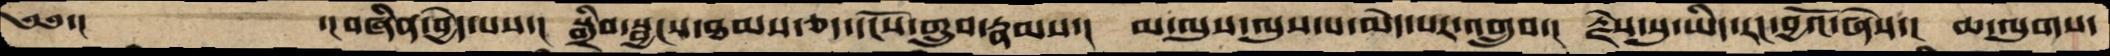༄༅་།      ་།བཞིན་བྱེད་པས་།  སྒྲིབ་སྦྱངས་ཐམས་ཅད་དངོས་གྲུབ་རྣམས་།  མ་ལུས་ལུས་པ་མེད་པར་འགྲུབ་།  རྗེས་སུ་ཡིད་རང་བྱའོ་ཞེས་།  ཆ་ལུགས་
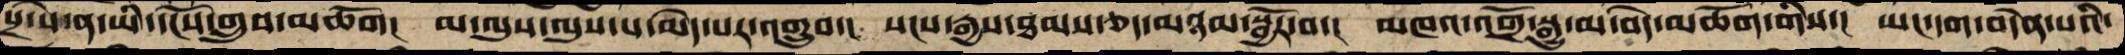པྲ་སེ་ན་ཡི་དངོས་གྲུབ་མཆོག།  མ་ལུས་ལུས་པ་མེད་པར་འགྲུབ་།  སངས་རྒྱས་ཐམས་ཅད་མཉམ་སྦྱོར་བ་།  མཁའ་གྲོ་སྒྱུ་མ་བདེ་མཆོག་གིས་།  ཡང་དག་བདེན་པའི་
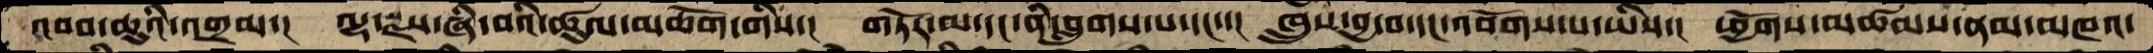འབབ་ཆུའི་འགྲམ་།  ལྷ་སྫས་ཞི་བའི་ཚུལ་མཆོག་གིས་།  གཏོར་མ་དང་ནི་བླུགས་པ་དང་་།  ཁྲུས་བྱ་བ་དང་འབོགས་པ་ཡིས་།  ཕྱོགས་མཚམས་ནམ་མཁའ་
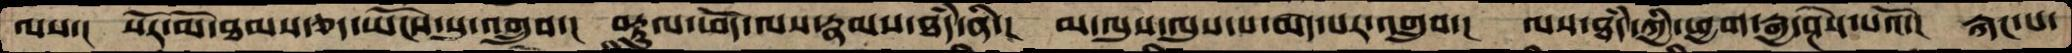ལས་།  སོར་མོ་ཐམས་ཅད་ཡོངས་སུ་འགྲུབ་།  བརྟུལ་ཕོད་ལས་རྣམས་ཐདཾ་ནི་།   མ་ལུས་ལུས་པ་མེད་པར་འགྲུབ་།  ལས་ཐདཾ་ཀྱི་ཕྱག་རྒྱ་ཤེས་པའོ་།  རྐང་པ་
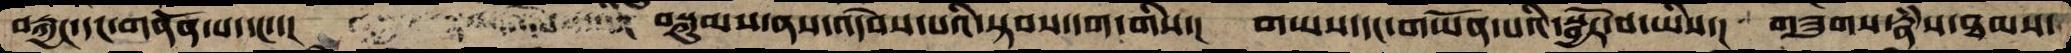བརྐྱང་དང་གནོན་པ་དང་་།  བསྐུམས་ནས་འདེབས་པའི་སྟབས་དག་གིས་།  གཡས་དང་གཡོན་པའི་སྦྱོར་བ་ཡིས་།  གཟུགས་རྣཾས་ཐམས་
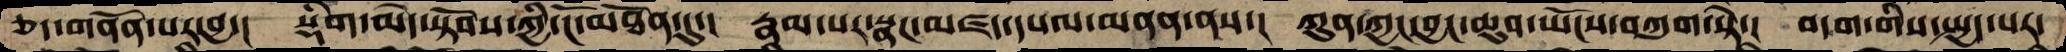ཅད་གནོན་པར་བྱ་།  སྡིག་མེད་སྟོབས་ཀྱི་ངོ་མཐོན་དུ་།  རྣམ་པར་སྣང་མཛད་དཔལ་མནན་ནས་།  ཀུན་ཀྱང་བྱང་ཆུབ་ཡོངས་བཀུག་སྟེ་།  བདག་གིས་སྤྱད་པར་
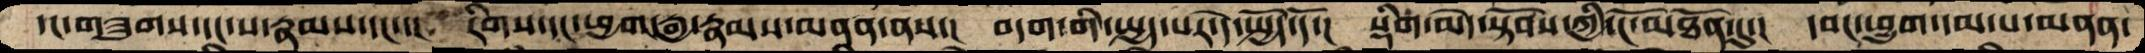དང་གཟུགས་དང་ས་རྣམས་དང་་།  རིགས་དང་ཕྱག་རྒྱ་རྣམས་མནན་ནས་།  བདག་གི་སྤྱད་པར་དེ་སྤྱོད་དོ་།  སྡིག་མེད་སྟོབས་ཀྱི་ངོ་མཐོན་དུ་།  དབང་ཕྱུག་དམ་པ་མནན་
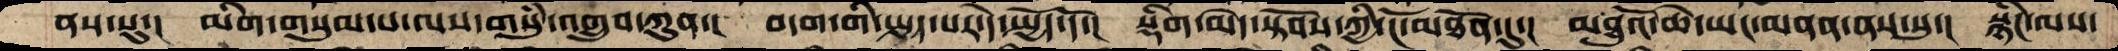ནས་སུ་།  མིག་གསུམ་པ་ལས་གསུཾ་འགྲུབ་ཀུན་།  བདག་གི་སྤྱད་པར་དེ་སྤྱོད་དོ་།  སྡིག་མེད་སྟོབས་ཀྱི་ངོ་མཐོན་དུ་།  མཐུའོ་ཆེ་ཡང་མནན་ནས་སུ་།  སྙིང་ལས་
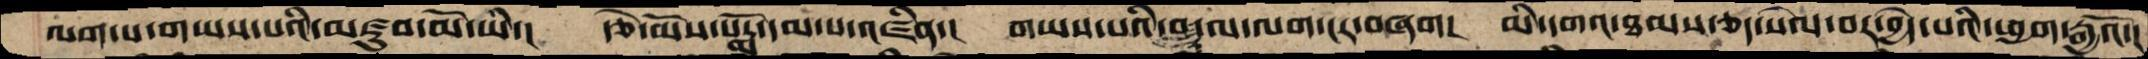ལག་པ་གཡས་པའི་མཛུབ་མོ་ཡི་།  རྩེ་མོས་པདྨོ་དམ་པ་འཛིན་།  གཡས་པའི་བླ་མ་ལག་ངར་བཞག།  མི་དགའ་ཐམས་ཅད་སེལ་བར་བྱེད་པའི་ཕྱག་རྒྱའོ་།
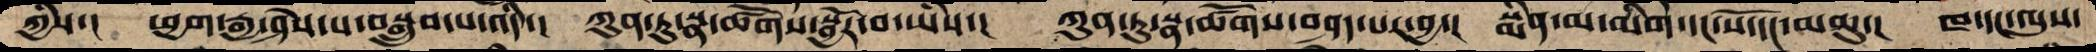ཀྱིས་།  ཕྱག་རྒྱ་ཤེས་པ་བསྒྲུབ་པ་འདི་།  ཀུན་ཏུ་སྣ་ཚོགས་སྦྱོར་བ་ཡིས་།  ཀུན་ཏུ་སྣ་ཚོགས་བཤད་པར་བྱ་།  སྨིན་མ་མིག་དང་སོ་དང་མཆུ་།  ཁ་དང་ལུས་
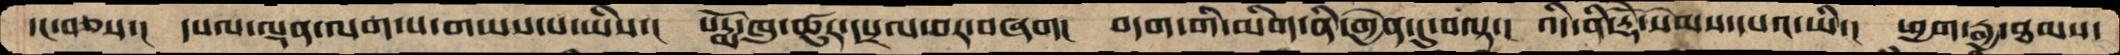དང་བཅས་།  དཔལ་ལྡན་ལག་པ་གཡས་པ་ཡིས་།  པདྨོ་ཁུ་ཚུར་དཔྲལ་བར་བཞག།  བདག་གི་མིག་ནི་གྱེན་དུ་བལྟ་།  འདི་ནི་རྡོེ་སེམས་དཔའ་ཡི་།  ཕྱག་རྒྱ་ཐམས་
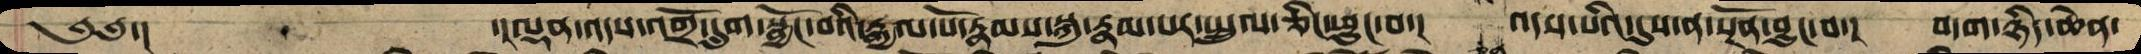༄༅་།    ་།ལྡན་འདས་འགྲོ་དྲུག་སྦྱོང་བའི་རྒྱལ་པོ་རྣམས་སྐུ་རྣམ་པར་སྤྲུལ་ཅིང་ཕྱུང་བ་།  འདས་པའི་དུས་ན་སྔོན་བྱུང་བ་།  བདག་ཉིད་ཆེན་
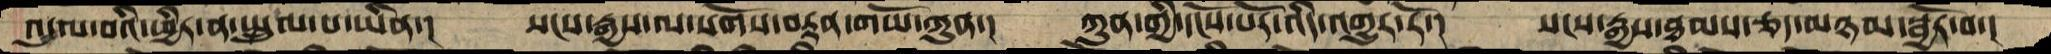འདུལ་བའི་ཕྱིར་ན་སྤྲུལ་པ་ཡིན་།  སངས་རྒྱས་ལ་སོགས་བརྟན་གཡོ་ཀུན་།  ཀུན་གྱི་དངོས་པོར་འདི་འགྱུར་རོ་།  སངས་རྒྱས་ཐམས་ཅད་མཉམ་སྦྱོར་བ་།
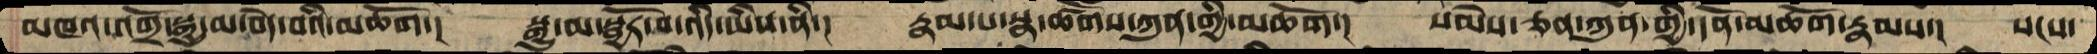མཁའ་གྲོ་སྒྱུ་མ་བདེ་བའི་མཆོག་།  སྒྱུ་མ་སྦྱོར་བ་འདི་ཡིས་ནི་།  རྣམ་པ་སྣ་ཚོགས་ཀུན་གྱི་མཆོག་།  སེམས་ཅན་ཀུན་གྱི་དོན་མཆོག་རྣམས་།  སངས་
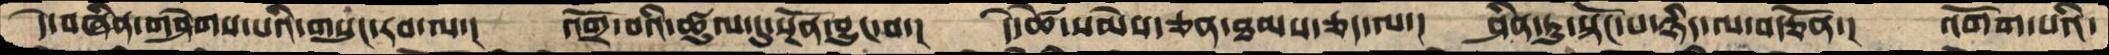དེ་བཞིན་གཤེགས་པའི་གསུང་རབ་ལ་།  འགྲོ་བའི་ཚུལ་དུ་སྔོན་བྱུང་བ་།  དེ་ཚེ་སེམས་ཅན་ཐམས་ཅད་ལ་།  ཤིན་ཏུ་སྟོང་པ་ཉིད་ལ་བརྩོན་།  འགོག་པའི་
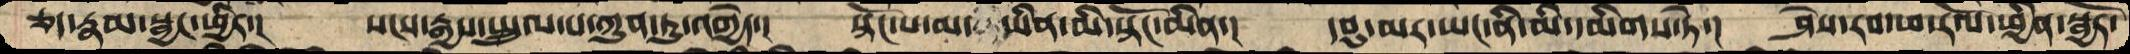ཅད་རྣམ་སྦྱང་ཕྱིར་།  སངས་རྒྱས་སྤྲུལ་པ་ཀུན་ཏུ་འགྱེད་།  སྟོང་པ་མ་ཡིན་མི་སྟོང་མིན་།  དབུ་མར་ཡང་ནི་མི་དམིགས་ཏེ་།  ཤེས་རབ་ཕ་རོལ་ཕྱིན་སྦྱོར་
